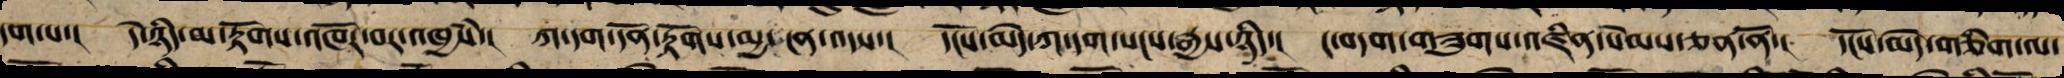དག་པ་། དེ་ཉིད་མ་རྟོགས་འཁོར་བར་འཁྱཾས་། ཀ་དག་དོན་རྟོགས་མྱ་ངན་འདས་། དངོས་མེད་ཀ་དག་སངས་རྒྱས་ཉིད་། ང་བདག་གཟུང་འཛིན་སེམས་ཅན་ནོ་། དངོས་མེད་གཅིག་ལ་
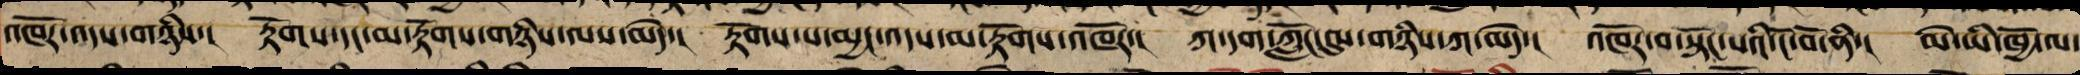འཁོར་འདས་གཉིས་། རྟོགས་དང་མ་རྟོགས་གཉིས་ལས་མེད་། རྟོགས་པ་མྱང་འདས་མ་རྟོགས་འཁོར་། ཀ་དག་ཀློང་ལ་གཉིས་ཀ་མེད་། འཁོར་བར་སྟོང་བའི་ངོ་བོ་ནི་། མེ་ཡི་ཁྱོ་ལ་
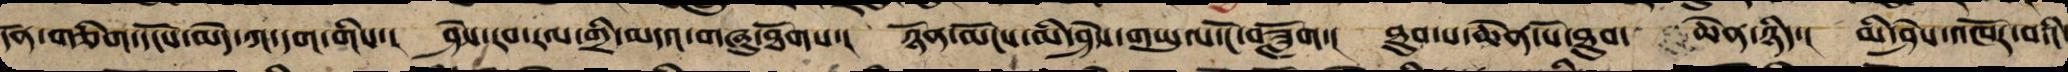དོན་གཅིག་དངོས་མེད་ཀ་དག་གིས་། ཤེས་རབ་རལ་གྲི་མདའ་གཞུ་ཐོགས་། ཉོན་མོངས་མི་ཤེས་གཡུལ་ངོ་བཟློག། ཐུབ་པ་ཆེན་པོ་ཐུབ་ཆེན་ཉིད་། མི་ཤེས་འཁོར་བའི་
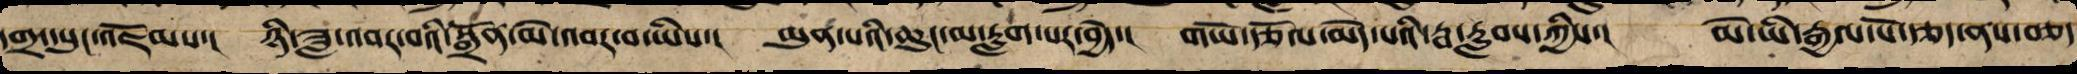དགྲ་དཔུང་འཇོམས་། ཉི་ཟླ་སྒྲོན་མེ་འབར་བཡིས་། མུན་པའི་ཆུང་མ་རླག་པར་བྱེད་། གཡོ་རྩོལ་མེད་པའི་རྦ་རླབས་ཀྱིས་། མེ་ཡི་ཁྱོ་བོ་རྩད་ནས་བཅད
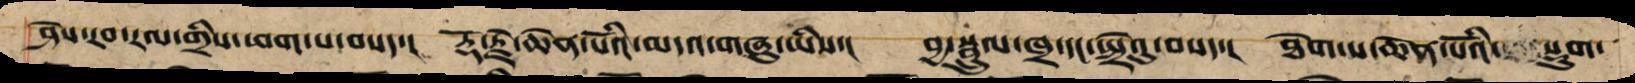ཤེས་རབ་རལ་གྲིས་ཁྱི་ཕག་བསད་། རྡོ་རྗེ་ཆེན་པོའི་མདའ་གཞུ་ཡིས་། བྱ་སྦྲུལ་ཁྲ་དང་སྤྲེའུ་བསད་། ཐེག་པ་ཆེན་པོས་སྡུག་
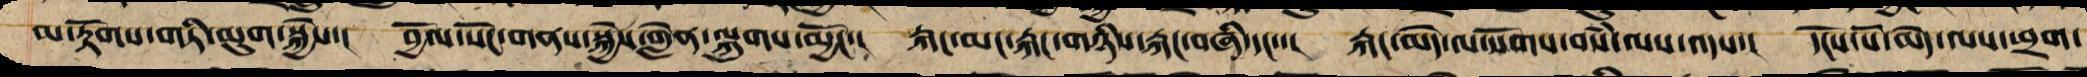མ་རྟོགས་གཏི་མུག་སྐྱེས་། བྱོལ་སོང་གནས་སྐྱེས་གླེན་ལྐུགས་མྱོང་། རྐང་མངས་རྐང་གཉིས་རྐང་བཞི་དང་་། རྐང་མེད་ལ་སོགས་བསཾ་ལས་འདས་། དངོས་པོ་མེད་ལས་ཕྲག་
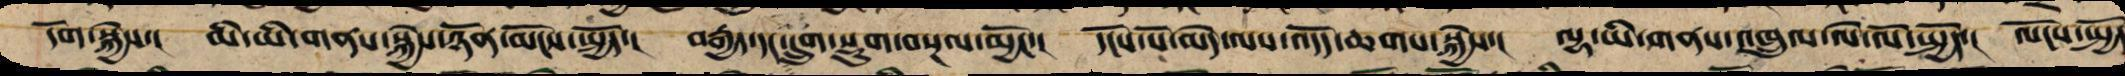དོག་སྐྱེས་། མི་ཡི་གནས་སྐྱེས་ཉོན་མོངས་སྤྱོད་། བརྒྱད་དང་དྲུག་སྡུག་བསྔལ་མྱོང་། དངོས་པོ་མེད་ལས་འདོད་ཆགས་སྐྱེས་། ལྷ་ཡི་གནས་འཁྲུལ་ལེ་ལོ་སྤྱོད་། ལོངས་སྤྱོད
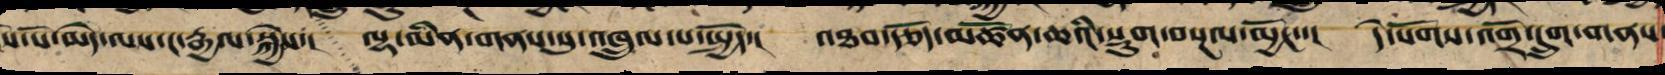ས་པོ་མེད་ལས་ང་རྒྱལ་སྐྱེས་། ལྷ་མིན་གནས་སུ་འཁྲུག་པ་སྤྱོད་། འཐབ་རྩོད་མཚོན་ཆའི་སྡུག་བསྔལ་མྱོང་་། དེ་སོགས་འགྲོ་དྲུག་གནས་
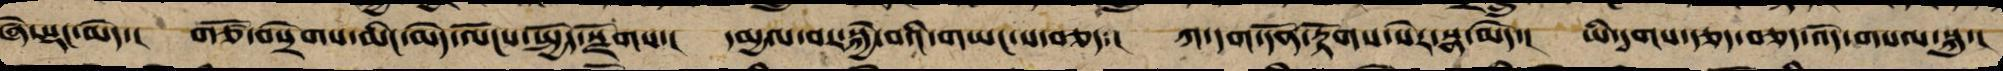ཞེ་སྡང་མེད་། བཙོ་བསྲེགས་མིང་མེད་ལོངས་སྤྱོད་སྫོགས་། དམྱལ་བར་སྐྱེ་བའི་གཡང་ས་བཅད་། ཀ་དག་དོན་རྟོགས་སེར་སྣ་མེད་། ཡི་དྭགས་རྩད་བཅད་འོད་གསལ་སྐུ་།
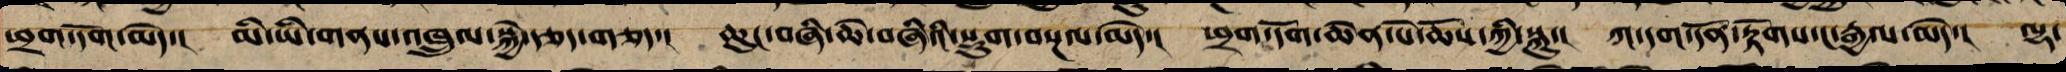ཕྲག་དོག་མེད་། མི་ཡི་གནས་འཁྲུལ་སྐྱེ་རྩད་གཅད་། ཆུང་བཞི་ཆེ་བཞིའི་སྡུག་བསྔལ་མེད་། ཕྲག་དོག་ཆེན་པོ་བདེ་ཆེན་སྐུ་། ཀ་དག་དོན་རྟོགས་ང་རྒྱལ་མེད་། ལྷ་
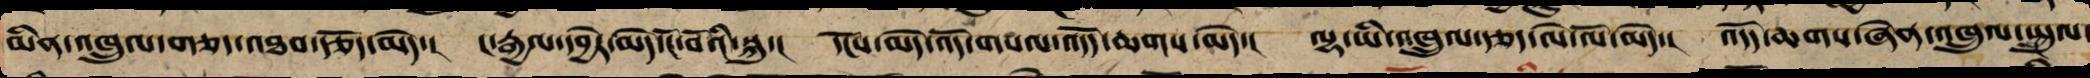མིན་འཁྲུལ་གཅད་འཐབ་རྩོད་མེད་། ང་རྒྱལ་དབྱེར་མེད་ངོ་བོའི་སྐུ་། དངོས་མེད་འོད་གསལ་འདོད་ཆགས་མེད་། ལྷ་ཡི་འཁྲུལ་གཅད་ལེ་ལོ་མེད་། འདོད་ཆགས་ཞེན་འཁྲུལ་སྤྲུལ་
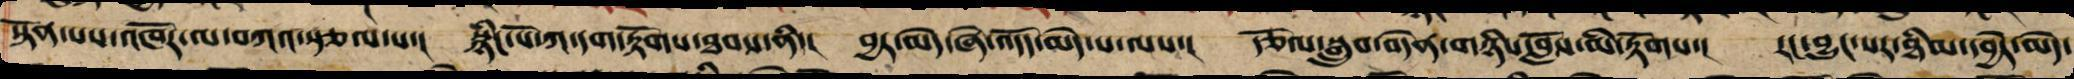སྟོན་པས་འཁོར་ལ་བཀའ་སྩལ་པ་། སྙིང་པོ་ཀ་དག་རྟོགས་ཐབས་ནི་། བྱར་མེད་ཞེ་འདོད་མེད་པ་ལས་། རྩོལ་སྒྲུབ་བདེན་གཉིས་བློས་མི་རྟོག། རང་བྱུང་སར་ཐིམ་དབྱེར་མེད་
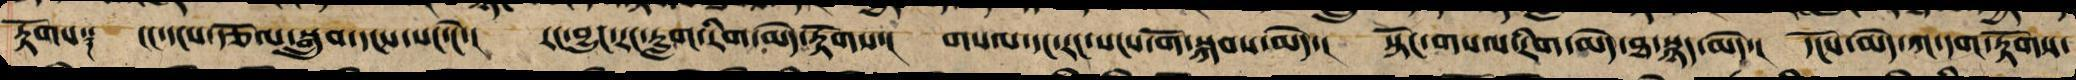རྟོགས༑ ངང་དངས་རྩོལ་སྒྲུབ་དྭངས་སང་ངེ་། རང་བྱུང་རང་རླག་རིག་མེད་རྟོགས་། གསལ་དང་རང་སངས་གོ་སྐབས་མེད་། སྟོང་གསལ་རིག་མེད་ཐ་སྙད་མེད་། དངོས་མེད་ཀ་དག་རྟོགས་
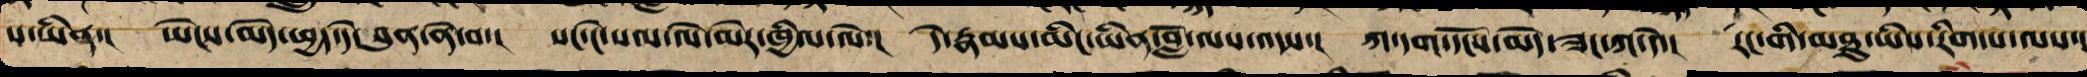པ་ཡིན་། ཡེངས་མེད་ཕྱད་དེ་བུན་ནེ་བ་། སང་ངེ་སལ་ལེ་མེར་ཁྱིལ་ལེ་། དེ་རྣམས་མིང་ཡིན་བློ་ལས་འདས་། ཀ་དག་དངོས་མེད་ཟང་ཀ་དེ་། རང་གི་མཐུ་ཡིས་རིག་པ་ལས་།
